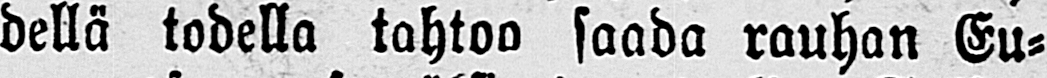dellä todella tahtoo saada rauhan Eu-
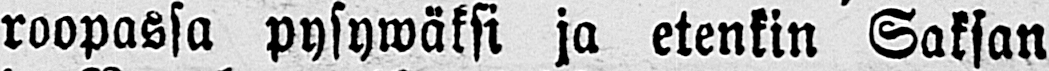roopassa pysywäksi ja etenkin Saksan
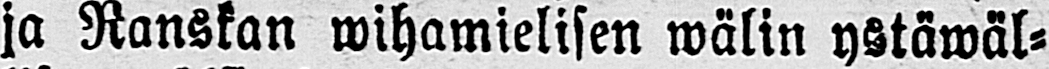ja Ranskan wihamielisen wälin ystäwäl-
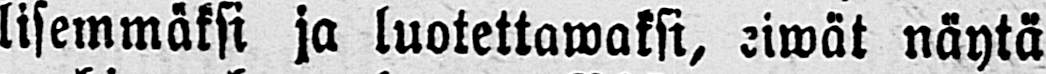lisemmäksi ja luotettawaksi, eiwät näytä
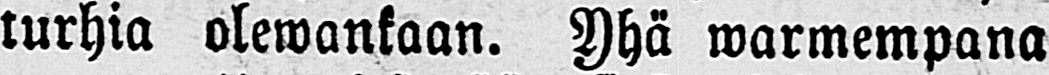turhia olewankaan. Yhä warmempana
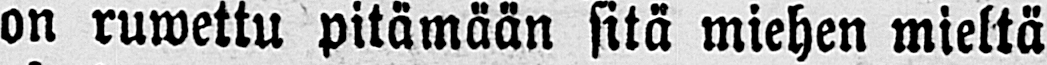on ruwettu pitämään sitä miehen mieltä
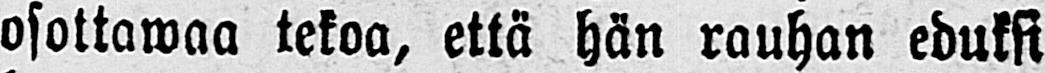osottawaa tekoa, että hän rauhan eduksi
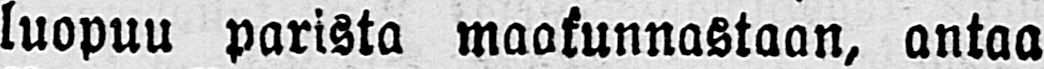luopuu parista maakunnastaan, antaa
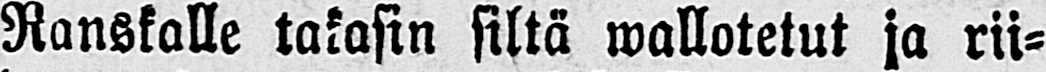Ranskalle takasin siltä wallotetut ja rii-
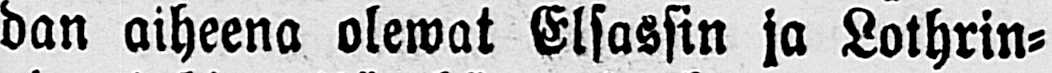dan aiheena olewat Elsassin ja Lothrin-
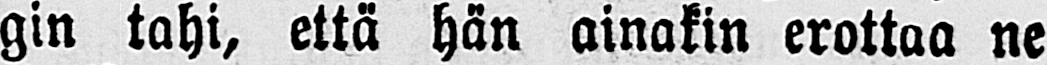gin tahi, että hän ainakin erottaa ne
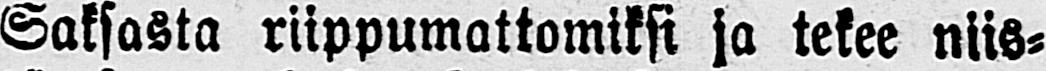Saksasta riippumattomiksi ja tekee niis-
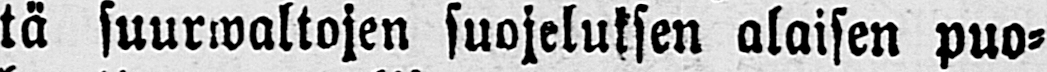tä suurwaltojen suojeluksen alaisen puo-
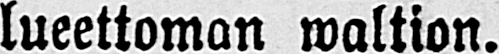lueettoman waltion.
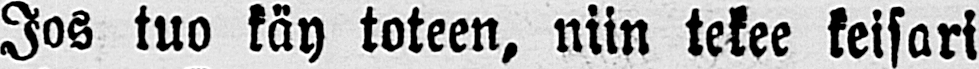Jos tuo käy toteen, niin tekee keisari
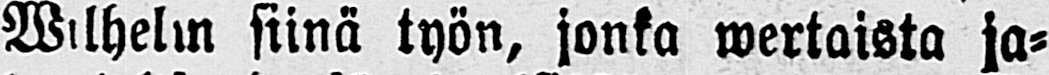Wilhelm siinä työn, jonka wertaista ja-
